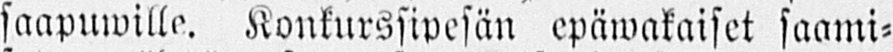saapuwille. Konkurssipesän epäwakaiset saami-
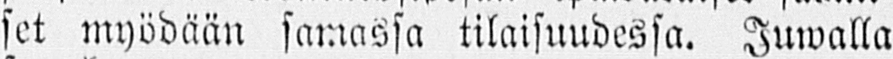set myödään samassa tilaisuudessa. Juwalla
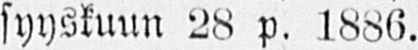syyskuun 28 p. 1886.
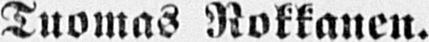Tuomas Rokkanen.
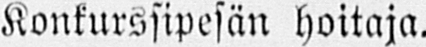Konkurssipesän hoitaja.
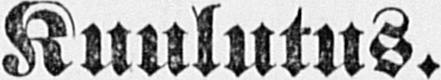Kuulutus.
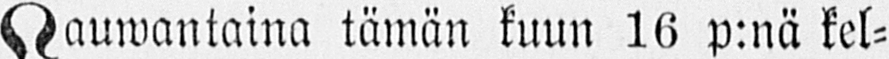Lauwantaina tämän kuun 16 p:nä kel-
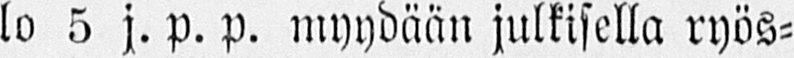lo 5 j. p. p. myydään julkisella ryös-
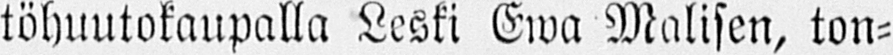töhuutokaupalla Leski Ewa Malisen, ton-
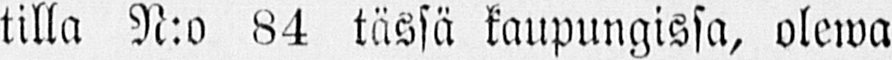tilla N:o 84 tässä kaupungissa, olewa
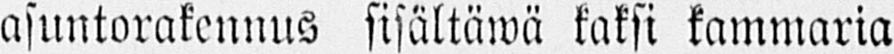asuntorakennus sisältäwä kaksi kammaria
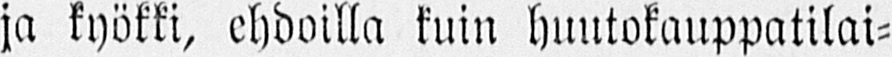ja kyökki, ehdoilla kuin huntokauppatilai-
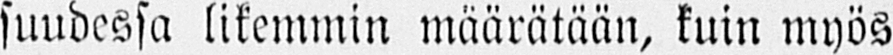suudessa likemmin määrätään, kuin myös
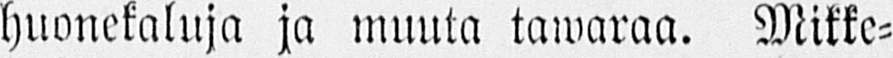huonekaluja ja muuta tawaraa. Mikke-
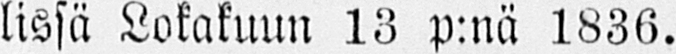lissä Lokakuun 13 p:nä 1836.
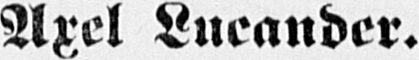Axel Lucander.
